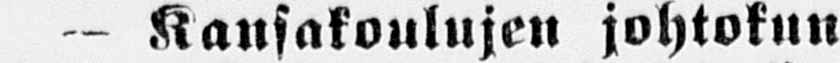— Kansakoulujen johtokun-
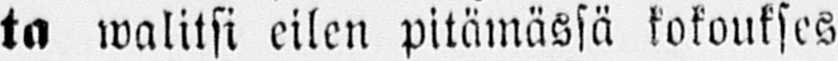ta walitsi eilen pitämässä kokoukses-
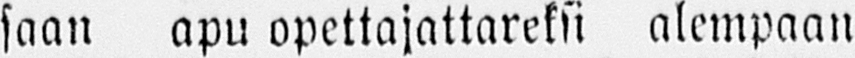saan apu opettajattareksi alempaan
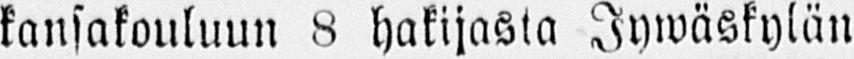kansakouluun 8 hakijasta Jywäskylän
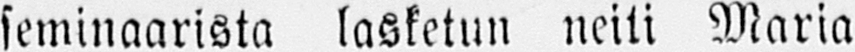seminaarista lasketun neiti Maria
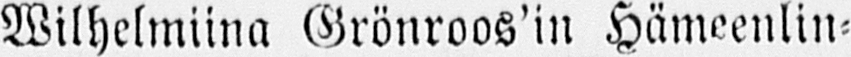Wilhelmiina Grönroos'in Hämeenlin-
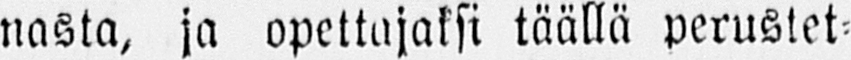nasta, ja opettajaksi täällä perustet-
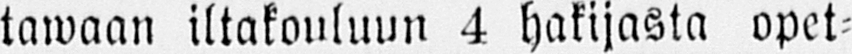tawaan iltakouluun 4 hakijasta opet-
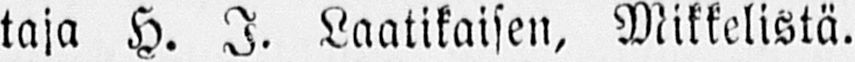taja H. I. Laatikaisen, Mikkelistä.
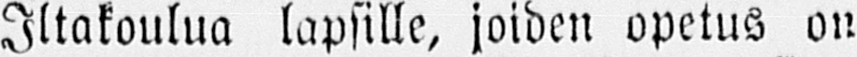Iltakoulua lapsille, joiden opetus on
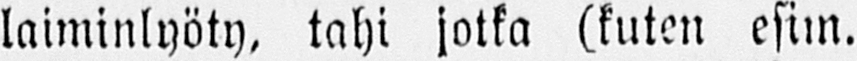laiminlyöty, tahi jotka (kuten esim.
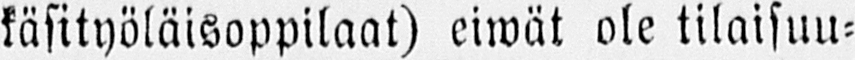käsityöläisoppilaat) eiwät ole tilaisuu-
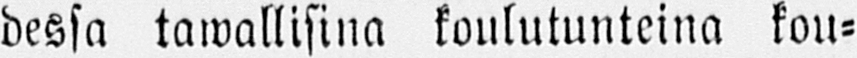dessa tawallisina koulutunteina kou-
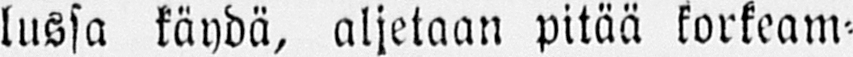lussa käydä, aljetaan pitää korkeam-
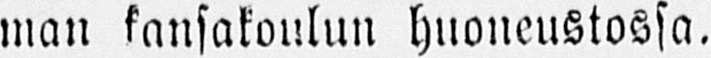man kansakoulun huoneustossa.
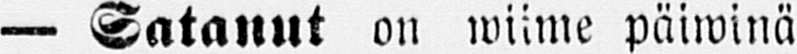— Satanut on wiime päiwinä
